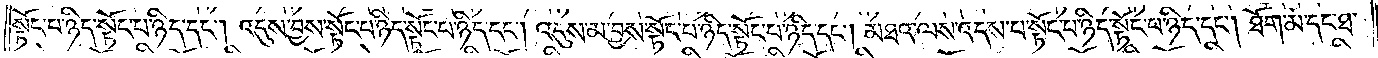སྟོང་པ་ཉིད་སྟོང་པ་ཉིད་དང༌། འདུས་བྱས་སྟོང་པ་ཉིད་སྟོང་པ་ཉིད་དང༌། འདུས་མ་བྱས་སྟོང་པ་ཉིད་སྟོང་པ་ཉིད་དང༌། མཐའ་ལས་འདས་པ་སྟོང་པ་ཉིད་སྟོང་པ་ཉིད་དང༌། ཐོག་མ་དང་ཐ་
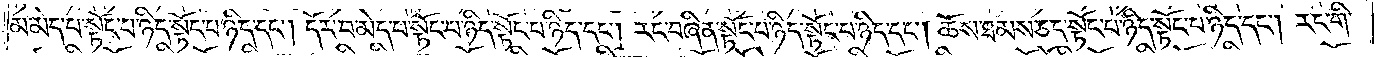མ་མེད་པ་སྟོང་པ་ཉིད་སྟོང་པ་ཉིད་དང༌། དོར་བ་མེད་པ་སྟོང་པ་ཉིད་སྟོང་པ་ཉིད་དང༌། རང་བཞིན་སྟོང་པ་ཉིད་སྟོང་པ་ཉིད་དང༌། ཆོས་ཐམས་ཅད་སྟོང་པ་ཉིད་སྟོང་པ་ཉིད་དང༌། རང་གི་
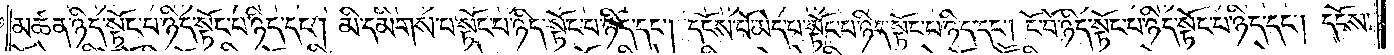མཚན་ཉིད་སྟོང་པ་ཉིད་སྟོང་པ་ཉིད་དང༌། མི་དམིགས་པ་སྟོང་པ་ཉིད་སྟོང་པ་ཉིད་དང༌། དངོས་པོ་མེད་པ་སྟོང་པ་ཉིད་སྟོང་པ་ཉིད་དང༌། ངོ་བོ་ཉིད་སྟོང་པ་ཉིད་སྟོང་པ་ཉིད་དང༌། དངོས་
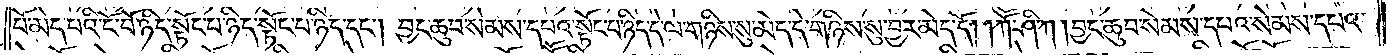པོ་མེད་པའི་ངོ་བོ་ཉིད་སྟོང་པ་ཉིད་སྟོང་པ་ཉིད་དང༌། བྱང་ཆུབ་སེམས་དཔའ་སྟོང་པ་ཉིད་དེ་ལ་གཉིས་སུ་མེད་དེ་གཉིས་སུ་བྱར་མེད་དོ། །ཀཽ་ཤི་ཀ །བྱང་ཆུབ་སེམས་དཔའ་སེམས་དཔའ་
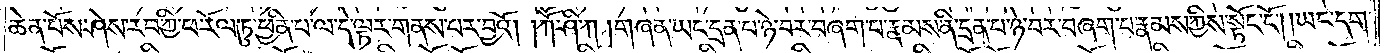ཆེན་པོས་ཤེས་རབ་ཀྱི་ཕ་རོལ་ཏུ་ཕྱིན་པ་ལ་དེ་ལྟར་གནས་པར་བྱའོ། །ཀཽ་ཤི་ཀ །གཞན་ཡང་དྲན་པ་ཉེ་བར་བཞག་པ་རྣམས་ནི་དྲན་པ་ཉེ་བར་བཞག་པ་རྣམས་ཀྱིས་སྟོང་ངོ༌། །ཡང་དག་
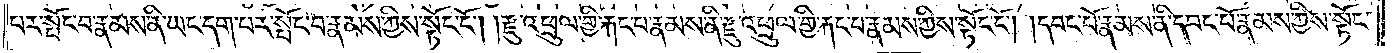པར་སྤོང་བ་རྣམས་ནི་ཡང་དག་པར་སྤོང་བ་རྣམས་ཀྱིས་སྟོང་ངོ༌། །རྫུ་འཕྲུལ་གྱི་རྐང་པ་རྣམས་ནི་རྫུ་འཕྲུལ་གྱི་རྐང་པ་རྣམས་ཀྱིས་སྟོང་ངོ༌། །དབང་པོ་རྣམས་ནི་དབང་པོ་རྣམས་ཀྱིས་སྟོང་
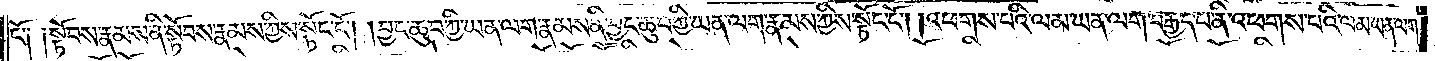ངོ༌༏ ༏སྟོབས་རྣམས་ནི་སྟོབས་རྣམས་ཀྱིས་སྟོང་ངོ༌། །བྱང་ཆུབ་ཀྱི་ཡན་ལག་རྣམས་ནི་བྱང་ཆུབ་ཀྱི་ཡན་ལག་རྣམས་ཀྱིས་སྟོང་ངོ༌། །འཕགས་པའི་ལམ་ཡན་ལག་བརྒྱད་པ་ནི་འཕགས་པའི་ལམ་ཡན་ལག་
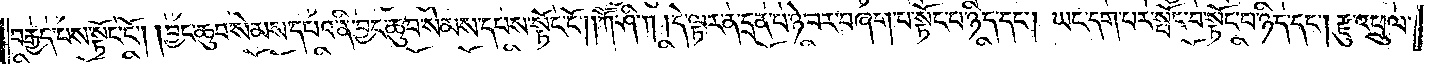བརྒྱད་པས་སྟོང་ངོ༌། །བྱང་ཆུབ་སེམས་དཔའ་ནི་བྱང་ཆུབ་སེམས་དཔས་སྟོང་ངོ༌། །ཀཽ་ཤི་ཀ །དེ་ལྟར་ན་དྲན་པ་ཉེ་བར་བཞག་པ་སྟོང་པ་ཉིད་དང༌། ཡང་དག་པར་སྤོང་བ་སྟོང་པ་ཉིད་དང༌། རྫུ་འཕྲུལ་
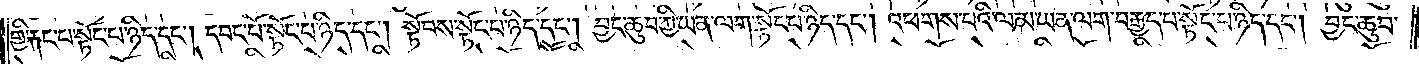གྱི་རྐང་པ་སྟོང་པ་ཉིད་དང༌། དབང་པོ་སྟོང་པ་ཉིད་དང༌། སྟོབས་སྟོང་པ་ཉིད་དང༌། བྱང་ཆུབ་ཀྱི་ཡན་ལག་སྟོང་པ་ཉིད་དང༌། འཕགས་པའི་ལམ་ཡན་ལག་བརྒྱད་པ་སྟོང་པ་ཉིད་དང༌། བྱང་ཆུབ་
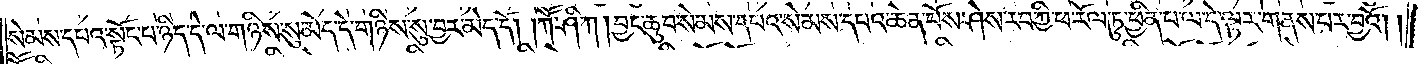སེམས་དཔའ་སྟོང་པ་ཉིད་དེ་ལ་གཉིས་སུ་མེད་དེ་གཉིས་སུ་བྱར་མེད་དོ། །ཀཽ་ཤི་ཀ །བྱང་ཆུབ་སེམས་དཔའ་སེམས་དཔའ་ཆེན་པོས་ཤེས་རབ་ཀྱི་ཕ་རོལ་ཏུ་ཕྱིན་པ་ལ་དེ་ལྟར་གནས་པར་བྱའོ། །
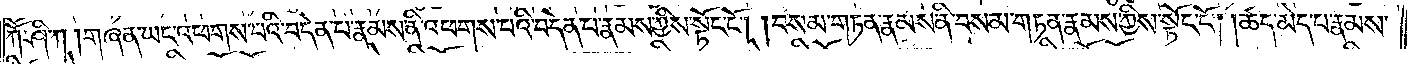ཀཽ་ཤི་ཀ །གཞན་ཡང་འཕགས་པའི་བདེན་པ་རྣམས་ནི་འཕགས་པའི་བདེན་པ་རྣམས་ཀྱིས་སྟོང་ངོ༌། །བསམ་གཏན་རྣམས་ནི་བསམ་གཏན་རྣམས་ཀྱིས་སྟོང་ངོ༌། །ཚད་མེད་པ་རྣམས་
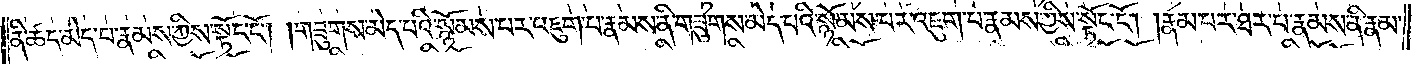ནི་ཚད་མེད་པ་རྣམས་ཀྱིས་སྟོང་ངོ༌། །གཟུགས་མེད་པའི་སྙོམས་པར་འཇུག་པ་རྣམས་ནི་གཟུགས་མེད་པའི་སྙོམས་པར་འཇུག་པ་རྣམས་ཀྱིས་སྟོང་ངོ༌། །རྣམ་པར་ཐར་པ་རྣམས་ནི་རྣམ་
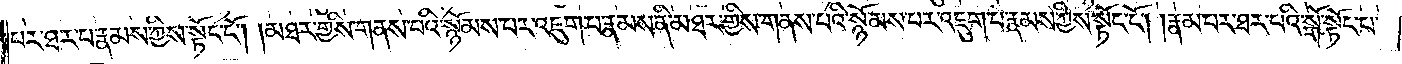པར་ཐར་པ་རྣམས་ཀྱིས་སྟོང་ངོ༌། །མཐར་གྱིས་གནས་པའི་སྙོམས་པར་འཇུག་པ་རྣམས་ནི་མཐར་གྱིས་གནས་པའི་སྙོམས་པར་འཇུག་པ་རྣམས་ཀྱིས་སྟོང་ངོ༌། །རྣམ་པར་ཐར་པའི་སྒོ་སྟོང་པ་
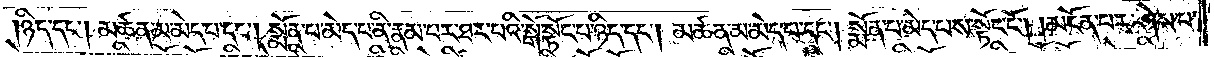ཉིད་དང༌། མཚན་མ་མེད་པ་དང༌། སྨོན་པ་མེད་པ་ནི་རྣམ་པར་ཐར་པའི་སྒོ་སྟོང་པ་ཉིད་དང༌། མཚན་མ་མེད་པ་དང༌། སྨོན་པ་མེད་པས་སྟོང་ངོ༌། །མངོན་པར་ཤེས་པ་
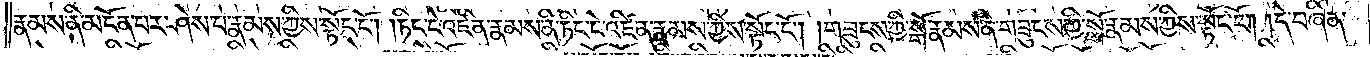རྣམས་ནི་མངོན་པར་ཤེས་པ་རྣམས་ཀྱིས་སྟོང་ངོ༌། །ཏིང་ངེ་འཛིན་རྣམས་ནི་ཏིང་ངེ་འཛིན་རྣམས་ཀྱིས་སྟོང་ངོ༌། །གཟུངས་ཀྱི་སྒོ་རྣམས་ནི་གཟུངས་ཀྱི་སྒོ་རྣམས་ཀྱིས་སྟོང་ངོ༌། །དེ་བཞིན་
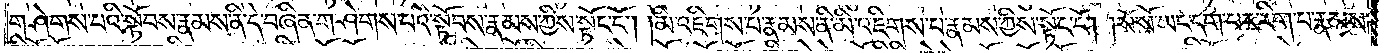གཤེགས་པའི་སྟོབས་རྣམས་ནི་དེ་བཞིན་གཤེགས་པའི་སྟོབས་རྣམས་ཀྱིས་སྟོང་ངོ༌། །མི་འཇིགས་པ་རྣམས་ནི་མི་འཇིགས་པ་རྣམས་ཀྱིས་སྟོང་ངོ༌། །སོ་སོ་ཡང་དག་པར་རིག་པ་རྣམས་
